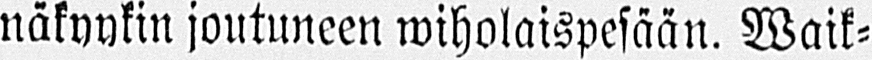näkyykin joutuneen wiholaispesään. Waik-
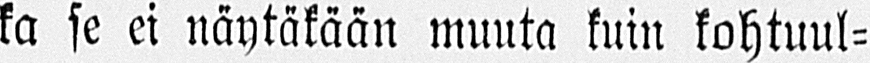ka se ei näytäkään muuta kuin kohtuul-
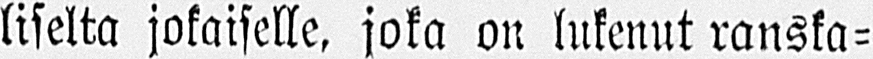liselta jokaiselle, joka on lukenut ranska-
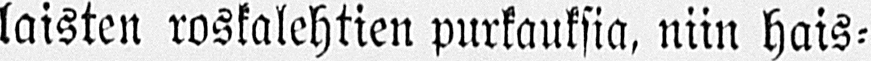laisten roskalehtien purkauksia, niin hais-
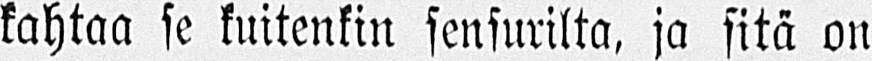kahtaa se kuitenkin sensurilta, ja sitä on
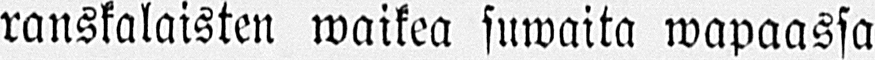ranskalaisten waikea suwailta wapaassa
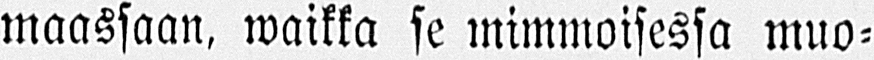maassaan, waikka se mimmoisessa muo-
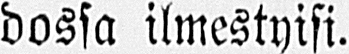dossa ilmestyisi.
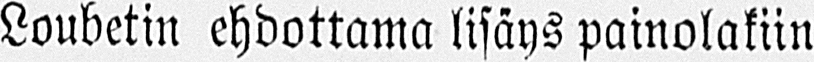Loubetin ehdottama lisäys painolakiin
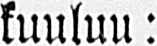kuuluu:
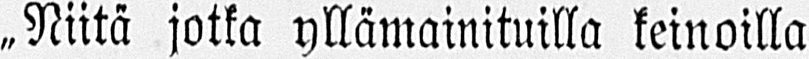„Niitä jotka yllämainituilla keinoilla
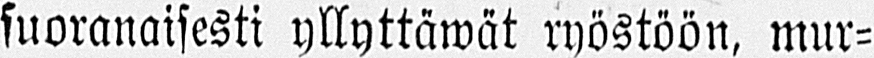suoranaisesti yllyttäwät ryöstöön, mur-
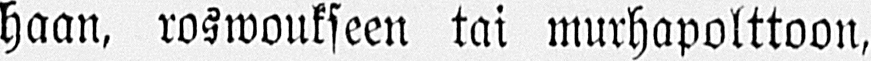haan, roswoukseen tai murhapolttoon,
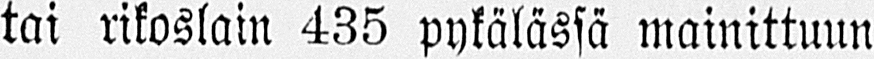tai rikoslain 435 pykälässä mainittuun
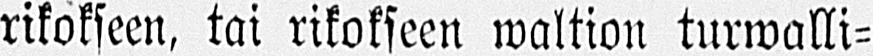rikokseen, tai rikokseen waltion turwalli-
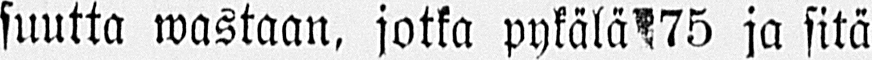suutta wastaan, jotka pykälä 75 ja sitä
